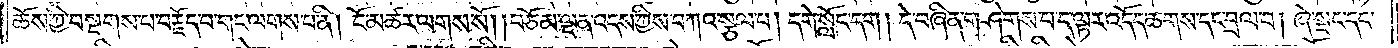ཆོས་ཀྱི་བསྔགས་པ་བརྗོད་པ་གང་ལགས་པ་ནི། ངོ་མཚར་ལགས་སོ། །བཅོམ་ལྡན་འདས་ཀྱིས་བཀའ་སྩལ་པ། དགེ་སློང་དག །དེ་བཞིན་གཤེགས་པ་ད་ལྟར་འདོད་ཆགས་དང་བྲལ་བ། ཞེ་སྡང་དང་
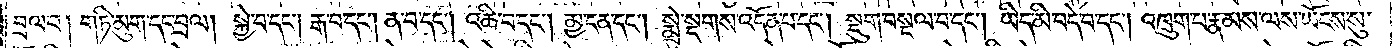བྲལ་བ། གཏི་མུག་དང་བྲལ། སྐྱེ་བ་དང༌། རྒ་བ་དང༌། ན་བ་དང༌། འཆི་བ་དང༌། མྱ་ངན་དང༌། སྨྲེ་སྔགས་འདོན་པ་དང༌། སྡུག་བསྔལ་བ་དང༌། ཡིད་མི་བདེ་བ་དང༌། འཁྲུག་པ་རྣམས་ལས་ཡོངས་སུ་
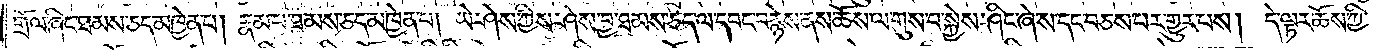གྲོལ་ཞིང་ཐམས་ཅད་མཁྱེན་པ། རྣམ་པ་ཐམས་ཅད་མཁྱེན་པ། ཡེ་ཤེས་ཀྱིས་ཤེས་བྱ་བ་ཐམས་ཅད་ལ་དབང་བརྙེས་ནས་ཆོས་ལ་གུས་པ་སྐྱེས་ཤིང་ཞེ་ས་དང་བཅས་པར་གྱུར་པས། དེ་ལྟར་ཆོས་ཀྱི་
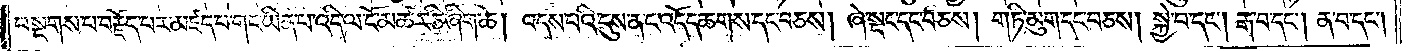བསྔགས་པ་བརྗོད་པར་མཛད་པ་གང་ཡིན་པ་འདི་ལ་ངོ་མཚར་ཅི་ཞིག་ཆེ། འདས་པའི་དུས་ན་ང་འདོད་ཆགས་དང་བཅས། ཞེ་སྡང་དང་བཅས། གཏི་མུག་དང་བཅས། སྐྱེ་བ་དང༌། རྒ་བ་དང༌། ན་བ་དང་
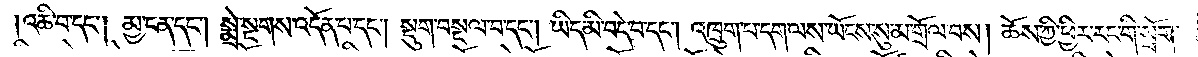འཆི་བ་དང༌། མྱ་ངན་དང༌། སྨྲེ་སྔགས་འདོན་པ་དང༌། སྡུག་བསྔལ་བ་དང༌། ཡིད་མི་བདེ་བ་དང༌། འཁྲུག་པ་དག་ལས་ཡོངས་སུ་མ་གྲོལ་བས། ཆོས་ཀྱི་ཕྱིར་རང་གི་སྲོག་
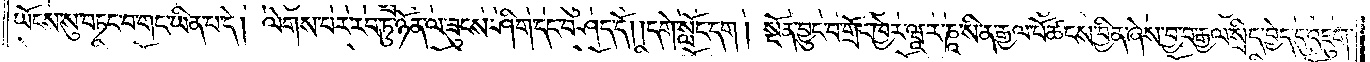ཡོངས་སུ་བཏང་བ་གང་ཡིན་པ་དེ། ལེགས་པར་རབ་ཏུ་ཉོན་ལ་ཟུངས་ཤིག་དང་བཤད་དོ། །དགེ་སློང་དག །སྔོན་བྱུང་བ་གྲོང་ཁྱེར་ཝཱ་ར་ཎཱ་སི་ན་རྒྱལ་པོ་ཚངས་བྱིན་ཞེས་བྱ་བ་རྒྱལ་སྲིད་བྱེད་དུ་འཇུག་
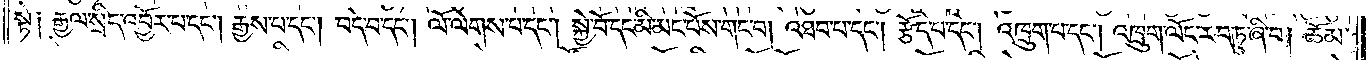སྟེ༑ རྒྱལ་སྲིད་འབྱོར་པ་དང༌། རྒྱས་པ་དང༌། བདེ་བ་དང༌། ལོ་ལེགས་པ་དང༌། སྐྱེ་བོ་དང་མི་མང་པོས་གང་བ། འཐབ་པ་དང༌། རྩོད་པ་དང༌། འཁྲུག་པ་དང༌། འཁྲུག་ལོང་རབ་ཏུ་ཞི་བ། ཆོམ་
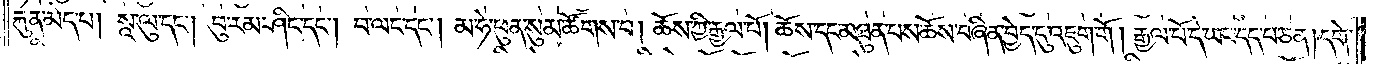རྐུན་མེད་པ། སཱ་ལུ་དང༌། བུ་རམ་ཤིང་དང༌། བ་ལང་དང༌། མ་ཧེ་ཕུན་སུམ་ཚོགས་པ། ཆོས་ཀྱི་རྒྱལ་པོ། ཆོས་དང་མཐུན་པས་ཆོས་བཞིན་བྱེད་དུ་འཇུག་གོ །རྒྱལ་པོ་དེ་ཡང་དད་པ་ཅན། དགེ་
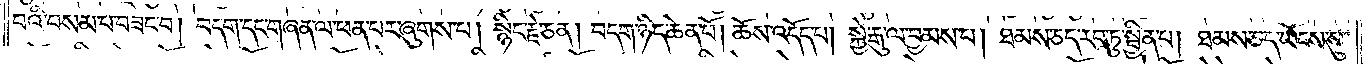བའི་བསམ་པ་བཟང་བ། བདག་དང་གཞན་ལ་ཕན་པར་ཞུགས་པ། སྙིང་རྗེ་ཅན། བདག་ཉིད་ཆེན་པོ། ཆོས་འདོད་པ། སྐྱེ་རྒུ་ལ་བྱམས་པ། ཐམས་ཅད་རབ་ཏུ་སྦྱིན་པ། ཐམས་ཅད་ཡོངས་སུ་
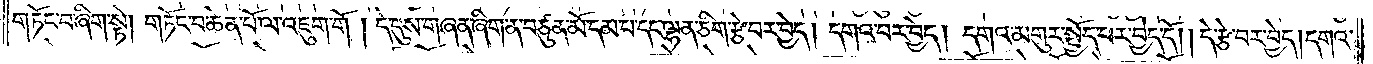གཏོང་བ་ཞིག་སྟེ། གཏོང་བ་ཆེན་པོ་ལ་འཇུག་གོ །དེ་དུས་གཞན་ཞིག་ན་བཙུན་མོ་དམ་པ་དང་ལྷན་ཅིག་རྩེ་བར་བྱེད། དགའ་བར་བྱེད། དགའ་མགུར་སྤྱོད་པར་བྱེད་དོ། །དེ་རྩེ་བར་བྱེད། དགའ་
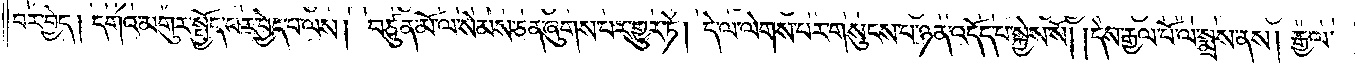བར་བྱེད། དགའ་མགུར་སྤྱོད་པར་བྱེད་པ་ལས། བཙུན་མོ་ལ་སེམས་ཅན་ཞུགས་པར་གྱུར་ཏེ། དེ་ལ་ལེགས་པར་གསུངས་པ་ཉན་འདོད་པ་སྐྱེས་སོ། །དེས་རྒྱལ་པོ་ལ་སྨྲས་ནས། རྒྱལ་
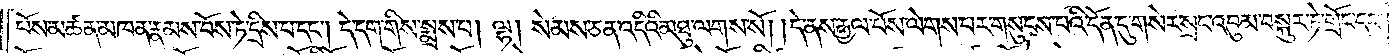པོས་མཚན་མཁན་རྣམས་བོས་ཏེ་དྲིས་པ་དང༌། དེ་དག་གིས་སྨྲས་པ། ལྷ། སེམས་ཅན་འདིའི་མཐུ་ལགས་སོ། །དེ་ནས་རྒྱལ་པོས་ལེགས་པར་གསུངས་པའི་དོན་དུ་གསེར་སྲང་འབུམ་བསྐུར་ཏེ་གྲོང་དང་
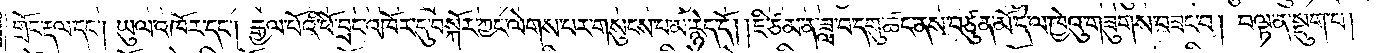གྲོང་རྡལ་དང༌། ཡུལ་འཁོར་དང༌། རྒྱལ་པོའི་ཕོ་བྲང་འཁོར་དུ་བསྐོར་ཀྱང་ལེགས་པར་གསུངས་པ་མ་རྙེད་དོ། །ཇི་ཙམ་ན་ཟླ་བ་དགུ་ཚང་ནས་བཙུན་མོ་དེ་ལ་ཁྱེའུ་གཟུགས་བཟང་བ། བལྟ་ན་སྡུག་པ།
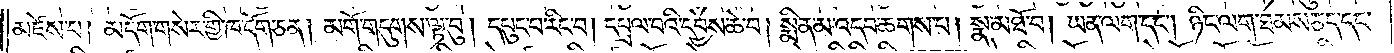མཛེས་པ། མདོག་གསེར་གྱི་ཁ་དོག་ཅན། མགོ་གདུགས་ལྟ་བུ། དཔུང་པ་རིང་བ། དཔྲལ་བའི་དབྱེས་ཆེ་བ། སྨིན་མ་འདབ་ཆགས་པ། སྣ་མཐོ་བ། ཡན་ལག་དང༌། ཉིང་ལག་ཐམས་ཅད་དང་
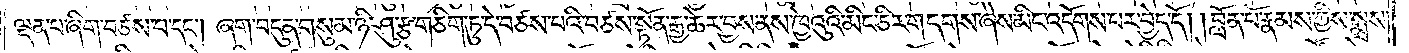ལྡན་པ་ཞིག་བཙས་པ་དང༌། ཞག་བདུན་གསུམ་ཉི་ཤུ་རྩ་གཅིག་ཏུ་དེ་བཙས་པའི་བཙས་སྟོན་རྒྱ་ཆེར་བྱས་ནས་ཁྱེའུའི་མིང་ཅིར་གདགས་ཞེས་མིང་འདོགས་པར་བྱེད་དོ། །བློན་པོ་རྣམས་ཀྱིས་སྨྲས་
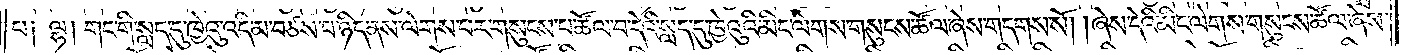པ༑ ལྷ། གང་གི་སླད་དུ་ཁྱེའུ་འདི་མ་བཙས་པ་ཉིད་ནས་ལེགས་པར་གསུངས་པ་ཚོལ་བ་དེའི་སླད་དུ་ཁྱེའུའི་མིང་ལེགས་གསུངས་ཚོལ་ཞེས་གདགས་སོ། །ཞེས་དེའི་མིང་ལེགས་གསུངས་ཚོལ་ཞེས་
